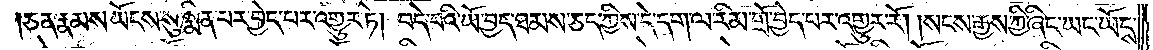ཅན་རྣམས་ཡོངས་སུ་སྨིན་པར་བྱེད་པར་འགྱུར་ཏེ། བདེ་བའི་ཡོ་བྱད་ཐམས་ཅད་ཀྱིས་དེ་དག་ལ་རིམ་གྲོ་བྱེད་པར་འགྱུར་རོ། །སངས་རྒྱས་ཀྱི་ཞིང་ཡང་ཡོངས་
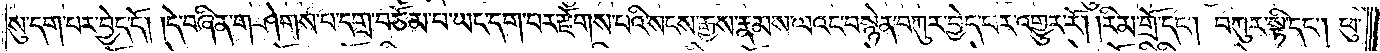སུ་དག་པར་བྱེད་དོ། །དེ་བཞིན་གཤེགས་པ་དགྲ་བཅོམ་པ་ཡང་དག་པར་རྫོགས་པའི་སངས་རྒྱས་རྣམས་ལའང་བསྙེན་བཀུར་བྱེད་པར་འགྱུར་རོ། །རིམ་གྲོ་དང༌། བཀུར་སྟི་དང༌། ཕུ་
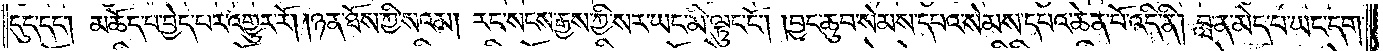དུད་དང༌། མཆོད་པ་བྱེད་པར་འགྱུར་རོ། །ཉན་ཐོས་ཀྱི་སའམ། རང་སངས་རྒྱས་ཀྱི་སར་ཡང་མི་ལྟུང་ངོ༌། །བྱང་ཆུབ་སེམས་དཔའ་སེམས་དཔའ་ཆེན་པོ་འདི་ནི། བླ་ན་མེད་པ་ཡང་དག་
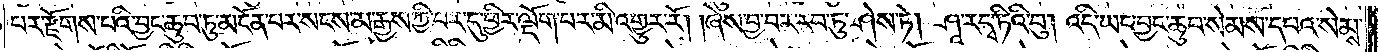པར་རྫོགས་པའི་བྱང་ཆུབ་ཏུ་མངོན་པར་སངས་མ་རྒྱས་ཀྱི་བར་དུ་ཕྱིར་ལྡོག་པར་མི་འགྱུར་རོ། །ཞེས་བྱ་བར་རབ་ཏུ་ཤེས་ཏེ། ཤཱ་ར་དྭ་ཏིའི་བུ། འདི་ཡང་བྱང་ཆུབ་སེམས་དཔའ་སེམས་
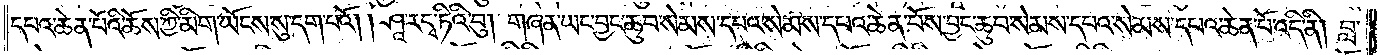དཔའ་ཆེན་པོའི་ཆོས་ཀྱི་མིག་ཡོངས་སུ་དག་པའོ། །ཤཱ་ར་དྭ་ཏིའི་བུ། གཞན་ཡང་བྱང་ཆུབ་སེམས་དཔའ་སེམས་དཔའ་ཆེན་པོས་བྱང་ཆུབ་སེམས་དཔའ་སེམས་དཔའ་ཆེན་པོ་འདི་ནི། བླ་
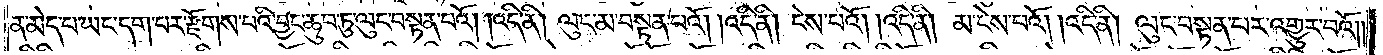ན་མེད་པ་ཡང་དག་པར་རྫོགས་པའི་བྱང་ཆུབ་ཏུ་ལུང་བསྟན་པའོ། །འདི་ནི། ལུང་མ་བསྟན་པའོ། །འདི་ནི། ངེས་པའོ། །འདི་ནི། མ་ངེས་པའོ། །འདི་ནི། ལུང་བསྟན་པར་འགྱུར་བའོ༎
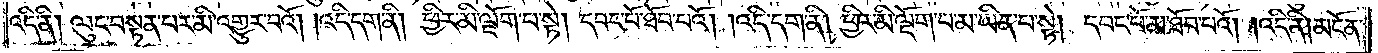འདི་ནི། ལུང་བསྟན་པར་མི་འགྱུར་བའོ། །འདི་དག་ནི། ཕྱིར་མི་ལྡོག་པ་སྟེ། དབང་པོ་ཐོབ་པའོ། །འདི་དག་ནི། ཕྱིར་མི་ལྡོག་པ་མ་ཡིན་པ་སྟེ། དབང་པོ་མ་ཐོབ་པའོ། །འདི་ནི། མངོན་
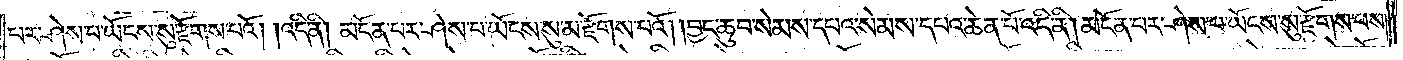པར་ཤེས་པ་ཡོངས་སུ་རྫོགས་པའོ། །འདི་ནི། མངོན་པར་ཤེས་པ་ཡོངས་སུ་མ་རྫོགས་པའོ། །བྱང་ཆུབ་སེམས་དཔའ་སེམས་དཔའ་ཆེན་པོ་འདི་ནི། མངོན་པར་ཤེས་པ་ཡོངས་སུ་རྫོགས་པས།
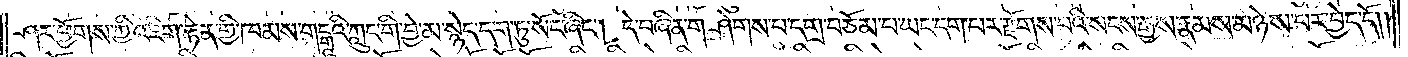ཤར་ཕྱོགས་ཀྱི་འཇིག་རྟེན་གྱི་ཁམས་གངྒཱའི་ཀླུང་གི་བྱེ་མ་སྙེད་དག་ཏུ་སོང་ཞིང༌། དེ་བཞིན་གཤེགས་པ་དགྲ་བཅོམ་པ་ཡང་དག་པར་རྫོགས་པའི་སངས་རྒྱས་རྣམས་མཉེས་པར་བྱེད་དོ༎
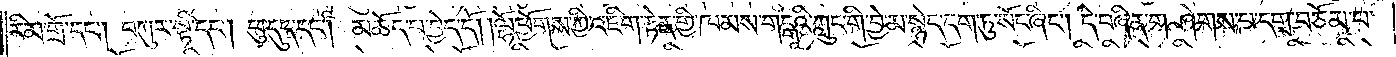རིམ་གྲོ་དང༌། བཀུར་སྟི་དང༌། ཕུ་དུད་དང༌། མཆོད་པ་བྱེད་དོ། །ལྷོ་ཕྱོགས་ཀྱི་འཇིག་རྟེན་གྱི་ཁམས་གངྒཱའི་ཀླུང་གི་བྱེ་མ་སྙེད་དག་ཏུ་སོང་ཞིང༌། དེ་བཞིན་གཤེགས་པ་དགྲ་བཅོམ་པ་
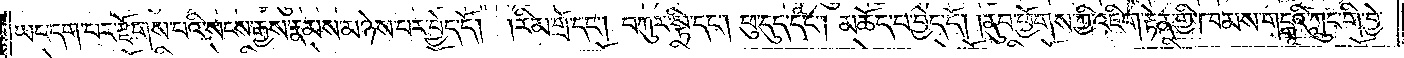ཡང་དག་པར་རྫོགས་པའི་སངས་རྒྱས་རྣམས་མཉེས་པར་བྱེད་དོ། །རིམ་གྲོ་དང༌། བཀུར་སྟི་དང༌། ཕུ་དུད་དང༌། མཆོད་པ་བྱེད་དོ། །ནུབ་ཕྱོགས་ཀྱི་འཇིག་རྟེན་གྱི་ཁམས་གངྒཱའི་ཀླུང་གི་བྱེ་
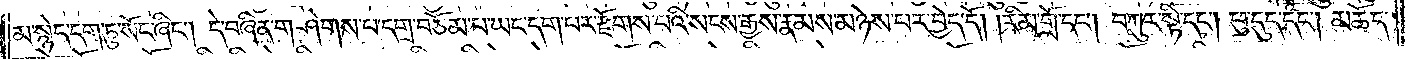མ་སྙེད་དག་ཏུ་སོང་ཞིང༌། དེ་བཞིན་གཤེགས་པ་དགྲ་བཅོམ་པ་ཡང་དག་པར་རྫོགས་པའི་སངས་རྒྱས་རྣམས་མཉེས་པར་བྱེད་དོ། །རིམ་གྲོ་དང༌། བཀུར་སྟི་དང༌། ཕུ་དུད་དང༌། མཆོད་
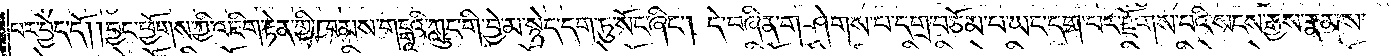པར་བྱེད་དོ། །བྱང་ཕྱོགས་ཀྱི་འཇིག་རྟེན་གྱི་ཁམས་གངྒཱའི་ཀླུང་གི་བྱེ་མ་སྙེད་དག་ཏུ་སོང་ཞིང༌། དེ་བཞིན་གཤེགས་པ་དགྲ་བཅོམ་པ་ཡང་དག་པར་རྫོགས་པའི་སངས་རྒྱས་རྣམས་
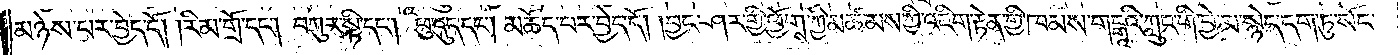མཉེས་པར་བྱེད་དོ། །རིམ་གྲོ་དང༌། བཀུར་སྟི་དང༌། ཕུ་དུད་དང༌། མཆོད་པར་བྱེད་དོ། །བྱང་ཤར་གྱི་ཕྱོགས་ཀྱི་མཚམས་ཀྱི་འཇིག་རྟེན་གྱི་ཁམས་གངྒཱའི་ཀླུང་གི་བྱེ་མ་སྙེད་དག་ཏུ་སོང་
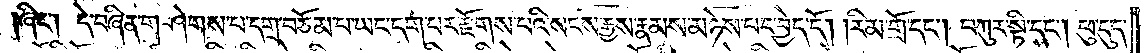ཞིང༌། དེ་བཞིན་གཤེགས་པ་དགྲ་བཅོམ་པ་ཡང་དག་པར་རྫོགས་པའི་སངས་རྒྱས་རྣམས་མཉེས་པར་བྱེད་དོ། །རིམ་གྲོ་དང༌། བཀུར་སྟི་དང༌། ཕུ་དུད་
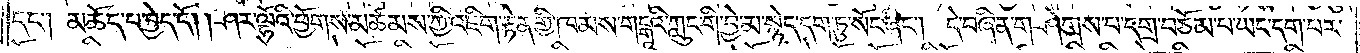དང༌། མཆོད་པ་བྱེད་དོ། །ཤར་ལྷོའི་ཕྱོགས་མཚམས་ཀྱི་འཇིག་རྟེན་གྱི་ཁམས་གངྒཱའི་ཀླུང་གི་བྱེ་མ་སྙེད་དག་ཏུ་སོང་ཞིང༌། དེ་བཞིན་གཤེགས་པ་དགྲ་བཅོམ་པ་ཡང་དག་པར་
